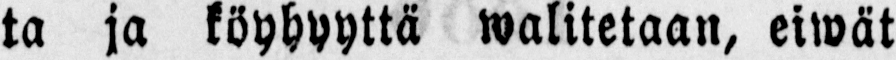ta ja köyhyyttä walitetaan, eiwät
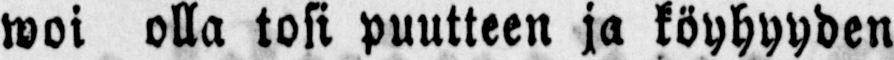woi olla tosi puutteen ja köyhyyden
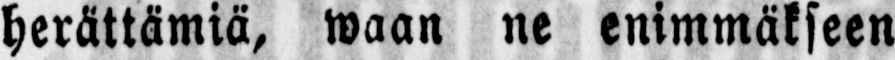herättämiä, waan ne enimmäkseen
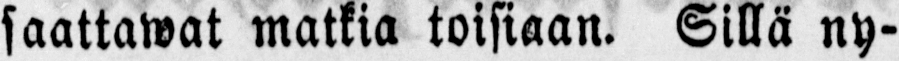saattawat matkia toisiaan. Sillä ny-
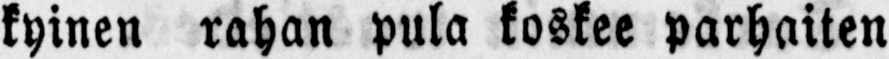kyinen rahan pula koskee parhaiten
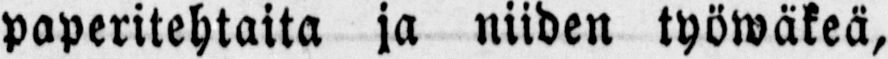paperitehtaita ja niiden työwäkeä,
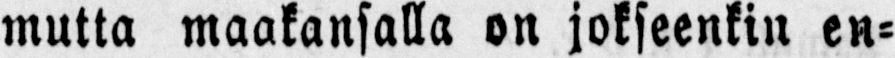mutta maakansalla on jokseenkin en-
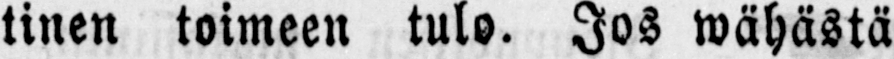tinen toimeen tulo. Jos wähästä
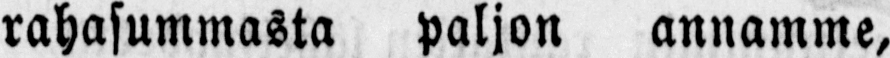rahasummasta paljon annamme,
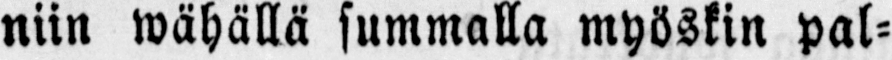niin wähällä summalla myöskin pal-
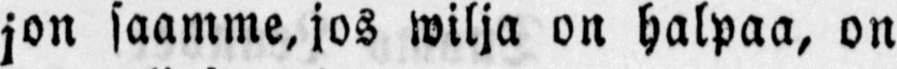jon saamme, jos wilja on halpaa, on
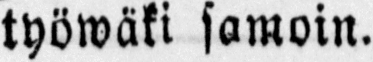työwäki samoin.
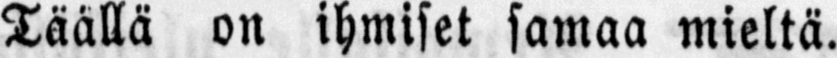Täällä on ihmiset samaa mieltä.
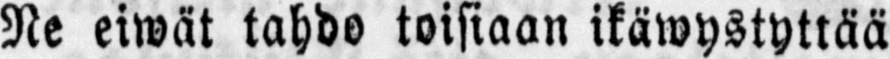Ne eiwät tahdo toisiaan ikäwystyttää
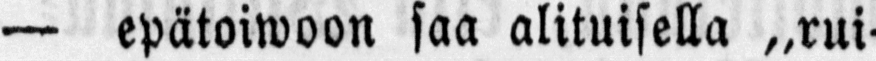— epätoiwoon saa alituisella „rui-
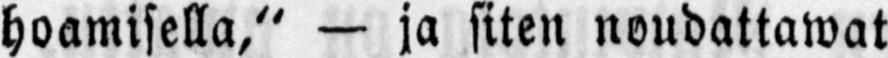hoamisella," — ja siten noudattawat
